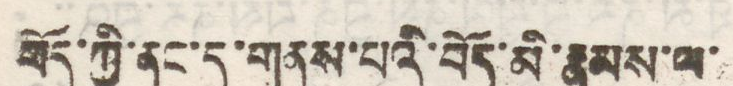བོད་ཀྱི་ནང་དུ་གནས་པའི་བོད་མི་རྣམས་ལ་
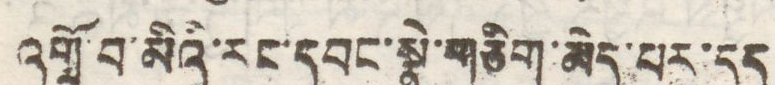འགྲོ་བ་མིའི་རང་དབང་སྣེ་གཅིག་མེ་དཔར་དུད
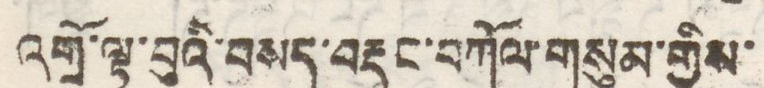འགྲོ་ལྟ་བུའི་བསད་བརྡུང་བཀོལ་གསུམ་གྱིས་
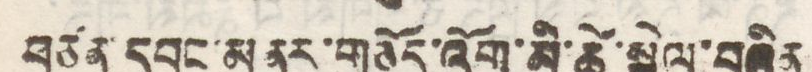བཙན་དབང་མནར་གཅོད་འོག་མི་ཚེ་སྐྱེལ་བཞིན
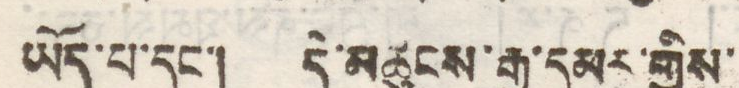ཡོད་པ་དང་། དེ་མཚུངས་རྒྱ་དམར་གྱིས་
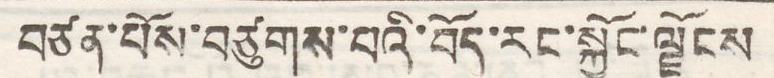བཙན་པོས་བཙུགས་པའི་བོད་རང་སྐྱོང་ལྗོངས
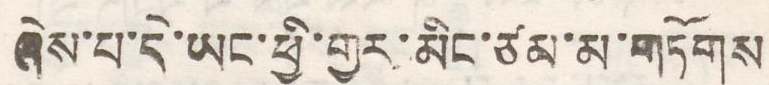ཞེས་པ་དེ་ཡང་ཕྱི་གྱར་མིང་ཙམ་མ་གཏོགས
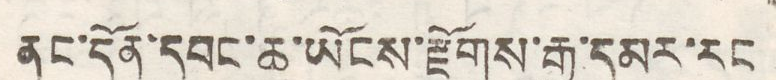ནང་དོན་དབང་ཆ་ཡོངས་རྫོགས་རྒྱ་དམར་རང་
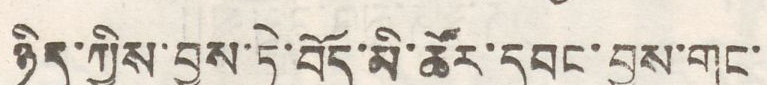ཉིད་ཀྱིས་བྱས་ཏེ་བོད་མི་ཚོར་དབང་བྱུས་གང་
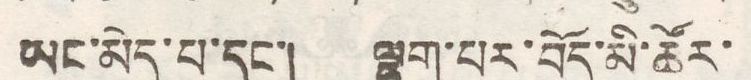ཡང་མེད་པ་དང་། ལྷག་པར་བོད་མི་ཚོར་
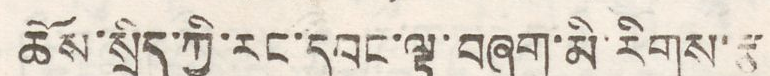ཚོས་སྲིད་ཀྱི་རང་དབང་ལྟ་བཞག་མི་རིགས་རྩ
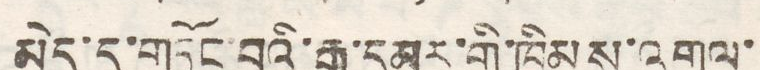མེད་དུ་གཏོང་བའི་རྒྱ་དམར་གྱི་ཁྲིམས་འགལ་
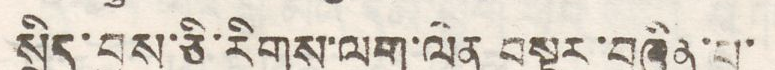སྲིད་བྱུས་ཅི་རིགས་ལག་ལེན བསྟར་བཞིན་པ་
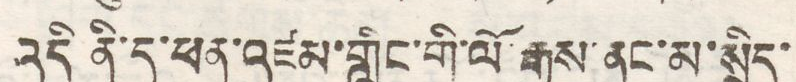འདི ནི་ད་ཕན་འཛམ་གླིང་གི་ལི་རྒྱུས་ནང་མ་སྲིད་
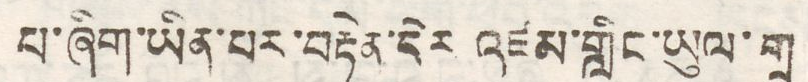པ་ཞིག་ཡིན་པར་བརྟེན་དེར འཛམ་གླིང་ཡུལ་གྲུ
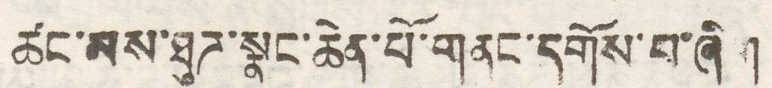ཚང་མས་ཐུཌ་སྣང་ཆེན་པོ་གནང་དགོས་བ་ཞིག
